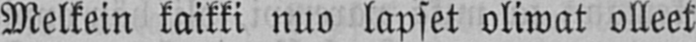Melkein kaikki nuo lapset oliwat olleet
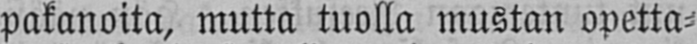pakanoita, mutta tuolla mustan opetta-
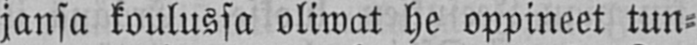jansa koulussa oliwat he oppineet tun-
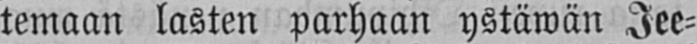temaan lasten parhaan ystäwän Jee-
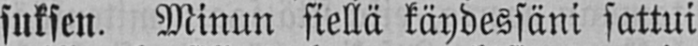suksen. Minun siellä käydessäni sattui
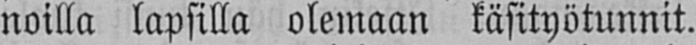noilla lapsilla olemaan käsityötunnit.
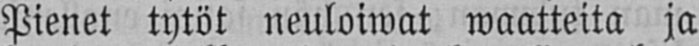Pienet tytöt neuloiwat waatteita ja
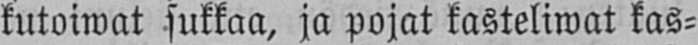kutoiwat sukkaa, ja pojat kasteliwat kas-
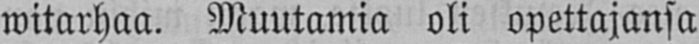witarhaa. Muutamia oli opettajansa
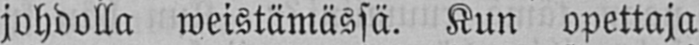johdolla weistämässä. Kun opettaja
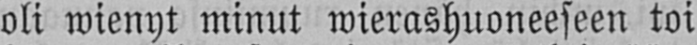oli wienyt minut wierashuoneeseen toi
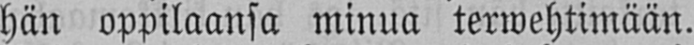hän oppilaansa minua terwehtimään.
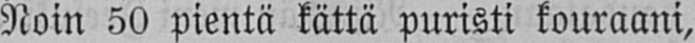Noin 50 pientä kättä puristi kouraani,
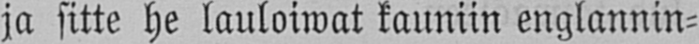ja sitte he lauloiwat kauniin englannin-
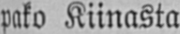aajän pako Kiinasta.
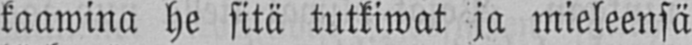kaawina he sitä tutkiwat ja mieleensä
